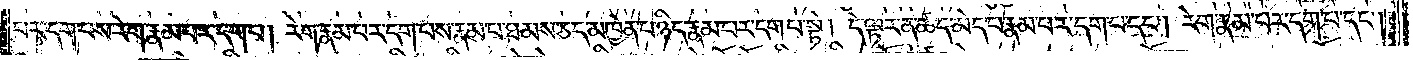པར་དག་པས་རེག་རྣམ་པར་དག་པ། རེག་རྣམ་པར་དག་པས་རྣམ་པ་ཐམས་ཅད་མཁྱེན་པ་ཉིད་རྣམ་པར་དག་པ་སྟེ། དེ་ལྟར་ན་ཚད་མེད་པ་རྣམ་པར་དག་པ་དང༌། རེག་རྣམ་པར་དག་པ་དང༌།
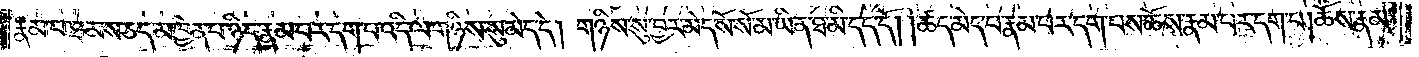རྣམ་པ་ཐམས་ཅད་མཁྱེན་པ་ཉིད་རྣམ་པར་དག་པ་འདི་ལ་གཉིས་སུ་མེད་དེ། གཉིས་སུ་བྱར་མེད་སོ་སོ་མ་ཡིན་ཐ་མི་དད་དོ། །ཚད་མེད་པ་རྣམ་པར་དག་པས་ཆོས་རྣམ་པར་དག་པ། ཆོས་རྣམ་
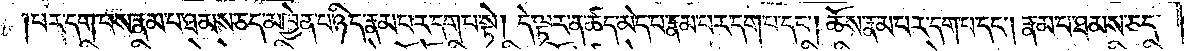པར་དག་པས་རྣམ་པ་ཐམས་ཅད་མཁྱེན་པ་ཉིད་རྣམ་པར་དག་པ་སྟེ། དེ་ལྟར་ན་ཚད་མེད་པ་རྣམ་པར་དག་པ་དང༌། ཆོས་རྣམ་པར་དག་པ་དང༌། རྣམ་པ་ཐམས་ཅད་
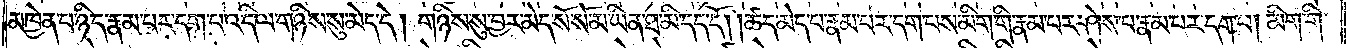མཁྱེན་པ་ཉིད་རྣམ་པར་དག་པ་འདི་ལ་གཉིས་སུ་མེད་དེ། གཉིས་སུ་བྱར་མེད་སོ་སོ་མ་ཡིན་ཐ་མི་དད་དོ། །ཚད་མེད་པ་རྣམ་པར་དག་པས་མིག་གི་རྣམ་པར་ཤེས་པ་རྣམ་པར་དག་པ། མིག་གི་
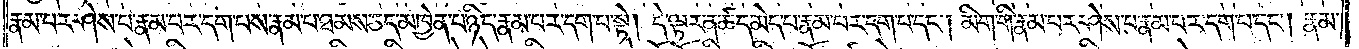རྣམ་པར་ཤེས་པ་རྣམ་པར་དག་པས་རྣམ་པ་ཐམས་ཅད་མཁྱེན་པ་ཉིད་རྣམ་པར་དག་པ་སྟེ། དེ་ལྟར་ན་ཚད་མེད་པ་རྣམ་པར་དག་པ་དང༌། མིག་གི་རྣམ་པར་ཤེས་པ་རྣམ་པར་དག་པ་དང༌། རྣམ་
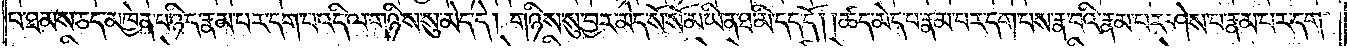པ་ཐམས་ཅད་མཁྱེན་པ་ཉིད་རྣམ་པར་དག་པ་འདི་ལ་གཉིས་སུ་མེད་དེ། གཉིས་སུ་བྱར་མེད་སོ་སོ་མ་ཡིན་ཐ་མི་དད་དོ། །ཚད་མེད་པ་རྣམ་པར་དག་པས་རྣ་བའི་རྣམ་པར་ཤེས་པ་རྣམ་པར་དག་
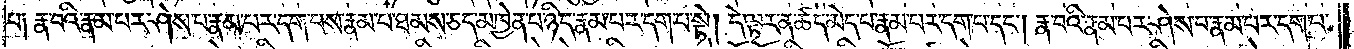པ༑ རྣ་བའི་རྣམ་པར་ཤེས་པ་རྣམ་པར་དག་པས་རྣམ་པ་ཐམས་ཅད་མཁྱེན་པ་ཉིད་རྣམ་པར་དག་པ་སྟེ། དེ་ལྟར་ན་ཚད་མེད་པ་རྣམ་པར་དག་པ་དང༌། རྣ་བའི་རྣམ་པར་ཤེས་པ་རྣམ་པར་དག་པ་
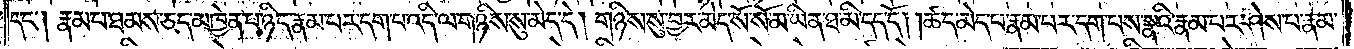དང༌། རྣམ་པ་ཐམས་ཅད་མཁྱེན་པ་ཉིད་རྣམ་པར་དག་པ་འདི་ལ་གཉིས་སུ་མེད་དེ། གཉིས་སུ་བྱར་མེད་སོ་སོ་མ་ཡིན་ཐ་མི་དད་དོ། །ཚད་མེད་པ་རྣམ་པར་དག་པས་སྣའི་རྣམ་པར་ཤེས་པ་རྣམ་
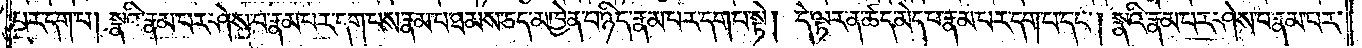པར་དག་པ། སྣའི་རྣམ་པར་ཤེས་པ་རྣམ་པར་དག་པས་རྣམ་པ་ཐམས་ཅད་མཁྱེན་པ་ཉིད་རྣམ་པར་དག་པ་སྟེ། དེ་ལྟར་ན་ཚད་མེད་པ་རྣམ་པར་དག་པ་དང༌། སྣའི་རྣམ་པར་ཤེས་པ་རྣམ་པར་
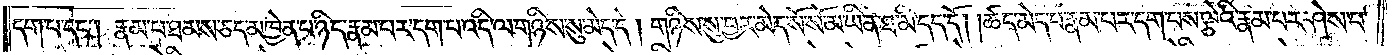དག་པ་དང༌། རྣམ་པ་ཐམས་ཅད་མཁྱེན་པ་ཉིད་རྣམ་པར་དག་པ་འདི་ལ་གཉིས་སུ་མེད་དེ། གཉིས་སུ་བྱར་མེད་སོ་སོ་མ་ཡིན་ཐ་མི་དད་དོ། །ཚད་མེད་པ་རྣམ་པར་དག་པས་ལྕེའི་རྣམ་པར་ཤེས་པ་
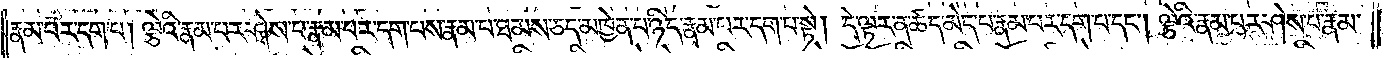རྣམ་པར་དག་པ། ལྕེའི་རྣམ་པར་ཤེས་པ་རྣམ་པར་དག་པས་རྣམ་པ་ཐམས་ཅད་མཁྱེན་པ་ཉིད་རྣམ་པར་དག་པ་སྟེ། དེ་ལྟར་ན་ཚད་མེད་པ་རྣམ་པར་དག་པ་དང༌། ལྕེའི་རྣམ་པར་ཤེས་པ་རྣམ་
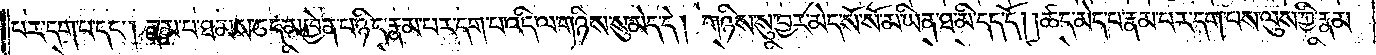པར་དག་པ་དང༌། རྣམ་པ་ཐམས་ཅད་མཁྱེན་པ་ཉིད་རྣམ་པར་དག་པ་འདི་ལ་གཉིས་སུ་མེད་དེ། གཉིས་སུ་བྱར་མེད་སོ་སོ་མ་ཡིན་ཐ་མི་དད་དོ། །ཚད་མེད་པ་རྣམ་པར་དག་པས་ལུས་ཀྱི་རྣམ་
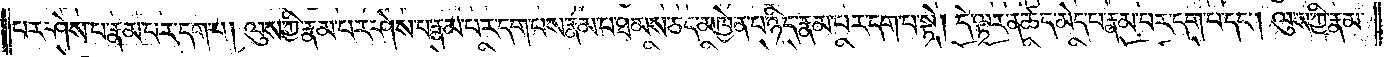པར་ཤེས་པ་རྣམ་པར་དག་པ། ལུས་ཀྱི་རྣམ་པར་ཤེས་པ་རྣམ་པར་དག་པས་རྣམ་པ་ཐམས་ཅད་མཁྱེན་པ་ཉིད་རྣམ་པར་དག་པ་སྟེ། དེ་ལྟར་ན་ཚད་མེད་པ་རྣམ་པར་དག་པ་དང༌། ལུས་ཀྱི་རྣམ་
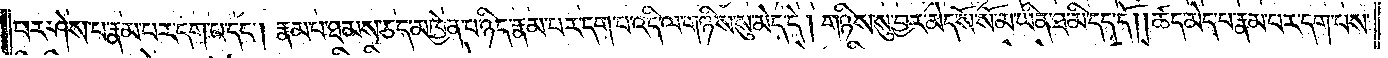པར་ཤེས་པ་རྣམ་པར་དག་པ་དང༌། རྣམ་པ་ཐམས་ཅད་མཁྱེན་པ་ཉིད་རྣམ་པར་དག་པ་འདི་ལ་གཉིས་སུ་མེད་དེ། གཉིས་སུ་བྱར་མེད་སོ་སོ་མ་ཡིན་ཐ་མི་དད་དོ། །ཚད་མེད་པ་རྣམ་པར་དག་པས་
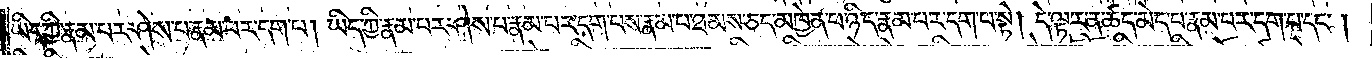ཡིད་ཀྱི་རྣམ་པར་ཤེས་པ་རྣམ་པར་དག་པ། ཡིད་ཀྱི་རྣམ་པར་ཤེས་པ་རྣམ་པར་དག་པས་རྣམ་པ་ཐམས་ཅད་མཁྱེན་པ་ཉིད་རྣམ་པར་དག་པ་སྟེ། དེ་ལྟར་ན་ཚད་མེད་པ་རྣམ་པར་དག་པ་དང༌།
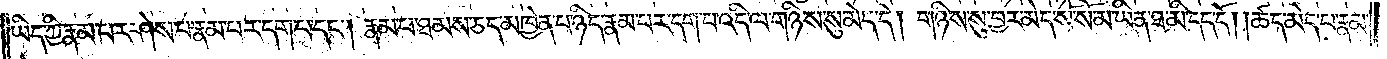ཡིད་ཀྱི་རྣམ་པར་ཤེས་པ་རྣམ་པར་དག་པ་དང༌། རྣམ་པ་ཐམས་ཅད་མཁྱེན་པ་ཉིད་རྣམ་པར་དག་པ་འདི་ལ་གཉིས་སུ་མེད་དེ། གཉིས་སུ་བྱར་མེད་སོ་སོ་མ་ཡིན་ཐ་མི་དད་དོ། །ཚད་མེད་པ་རྣམ་
